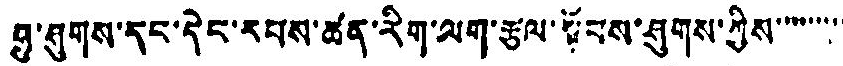བུ་ཤུགས་དང་དེང་རབས་ཚན་རིག་ལག་རྩལ་སྟོབས་ཤུགས་ཀྱིས་་་་་་་་་་
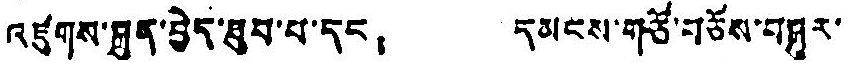འཛུགས་སྐྲུན་བྱེད་ཐུབ་པ་དང： དམངས་གཙོ་བཅོས་བསྒྱུར་
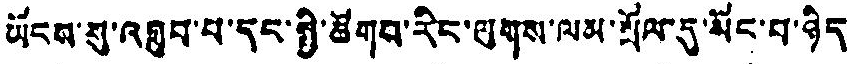ཡོངས་སུ་འགྲུབ་པ་དང་སྤྱི་ཚོགས་རིང་ལུགས་ལམ་གྲོལ་དུ་སོང་བ་ཉིད་
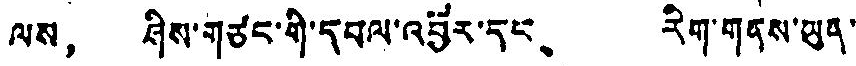ལས， ཤིས་གཙང་གི་དཔལ་འབྱོར་དང、 རིག་གནས་ཡུལ་
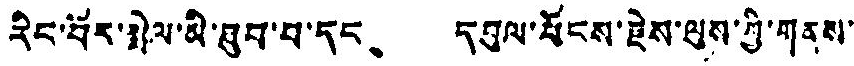རིང་བོར་སྤེལ་མི་ཐུབ་པ་དང、 དབུལ་པོངས་རྗེས་ལུས་ཀྱི་གནས་
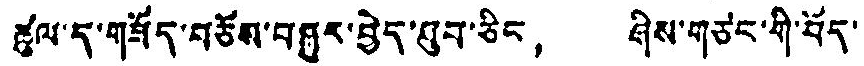ཚུལ་དུ་གཟོད་བཅོས་བསྱུར་བྱེད་ཐུབ་ཅིང， ཤིས་གཙང་གི་བོད་
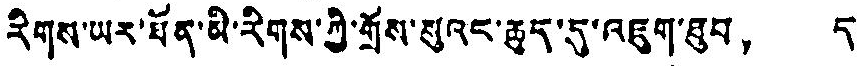རིགས་ཡར་ཐོན་མི་རིགས་ཀྱི་གྲོས་སུའང་ཆུད་དུ་འཇུག་ཐུབ， ད
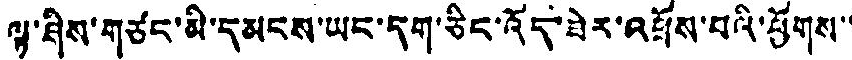ལྟ་ཤིས་གཙང་མི་དམངས་ཡང་དག་ཅིང་འོད་ཟེར་འཕྲོས་པའི་ཕྱོགས་་
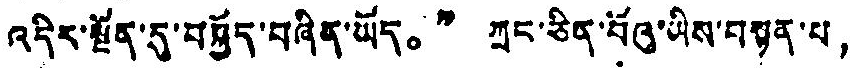འདིར་སྔོན་དུ་བསྐྱོད་བཞིན་ཡོད。” ཀྲུང་ཅིན་པོའུ་ཡིས་བསྟན་པ，
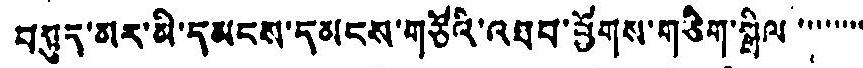བསུད་མར་མི་དམངས་དམངས་གཙོའི་འཐབ་ཕྱོགས་གཅིག་སྒྲིལ་་་་་་་་
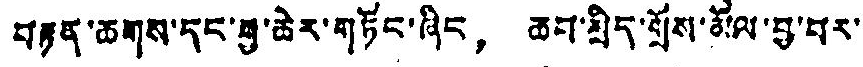བརྟན་ཆགས་དང་རྒྱ་ཆེར་གཏོང་ཞིང， ཆབ་སྲིད་གྲོས་མོལ་བྱ་བར་
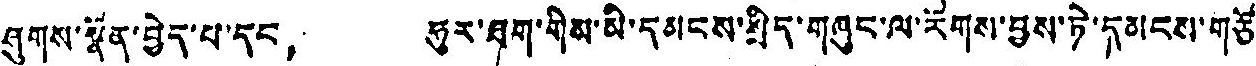ཤུགས་སྣོན་བྱེད་པ་དང， ཧུར་ཐག་གིས་མི་དམངས་སྲིད་གཞུང་ལ་རོགས་བྱས་ཏེ་དམངས་གཙོ་
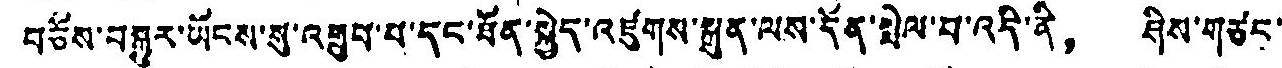བཅོས་བསྐྱུར་ཡོངས་སུ་འགྲུབ་པ་དང་ཐོན་སྐྱེད་འཛུགས་སྐྲུན་ལས་དོན་སྤེལ་བ་འདི་ནི， ཤིས་གཙང་
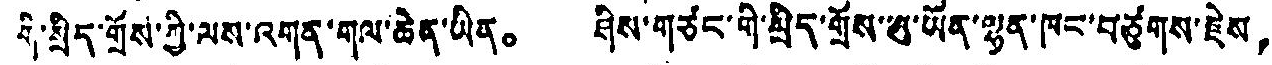གི་སྲིད་གྲོས་ཀྱི་ལས་འགན་གལ་ཆེན་ཡིན。 ཤིས་གཙང་གི་སྲིད་གྲོས་ཨུ་ཡོན་ལྷན་ཁང་བཙུགས་རྗེས，
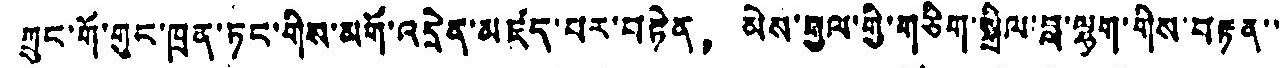ཀྲུང་གོ་གུང་ཁྲན་ཏང་གིས་མགོ་འདྲེན་མཛད་པར་བརྟེན， མེས་རྒྱལ་གྱི་གཅིག་སྒྲིལ་བླ་ལྷག་གིས་བརྟན་་་
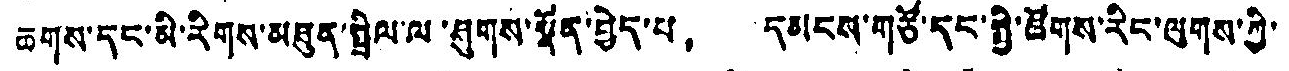ཆགས་དང་མི་རིགས་མཐུན་སྒྲིལ་ལ་ཤུགས་སྣོན་བྱེད་པ， དམངས་གཙོ་དང་སྤྱི་ཚོགས་རིང་ལུགས་ཀྱི་
